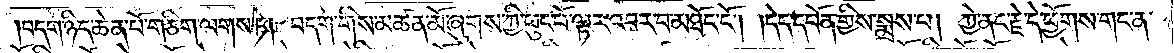།བདག་ཉིད་ཆེན་པོ་གཅིག་ལགས་ཏེ། བདག་གིས་མཚན་མོ་ཞུགས་ཀྱི་ཕུང་པོ་ལྟར་འབར་བ་མཐོང་ངོ༌། །དེད་དཔོན་གྱིས་སྨྲས་པ། ཀྱེ་ནང་རྗེ་དེ་ཕྱོགས་གང་ན་
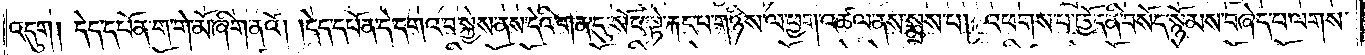འདུག །དེད་དཔོན་ག་གེ་མོ་ཞིག་ནའོ། །དེད་དཔོན་དེ་དགའ་བ་སྐྱེས་ནས་དེའི་གན་དུ་སོང་སྟེ་རྐང་པ་གཉིས་ལ་ཕྱག་འཚལ་ནས་སྨྲས་པ། འཕགས་པ་ཁྱོད་ནི་བསོད་སྙོམས་བཞེད་པ་ལགས་
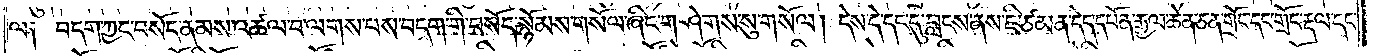ལ༑ བདག་ཀྱང་བསོད་ནམས་འཚལ་བ་ལགས་པས་བདག་གི་བསོད་སྙོམས་གསོལ་ཞིང་གཤེགས་སུ་གསོལ། དེས་དེ་དང་དུ་བླངས་ནས་ཇི་ཙམ་ན་དེད་དཔོན་རྒྱལ་ཆེན་ཅན་གྲོང་དང་གྲོང་རྡལ་དང་
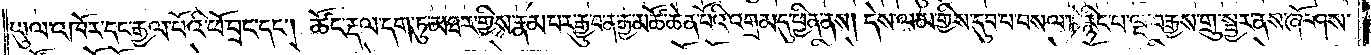ཡུལ་འཁོར་དང་རྒྱལ་པོའི་ཕོ་བྲང་དང༌། ཚོང་རྡལ་དག་ཏུ་མཐར་གྱིས་རྣམ་པར་རྒྱུ་བ་ན་རྒྱ་མཚོ་ཆེན་པོའི་འགྲམ་དུ་ཕྱིན་ནས། དེས་ལམ་གྱིས་དུབ་པ་བསལ་ཏེ་རྙིང་པ་ལྔ་བརྒྱས་གྲུ་སྦྱར་ནས་ཞོ་ཤས་
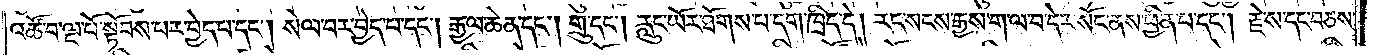འཚོ་བ་ལྔ་པོ་སྟོབས་པར་བྱེད་པ་དང༌། སེལ་བར་བྱེད་པ་དང༌། རྒྱལ་ཆེན་དང༌། གྲུ་དང༌། རླུང་ཡོར་ཐོགས་པ་དག་ཁྲིད་དེ། རང་སངས་རྒྱས་ག་ལ་བ་དེར་སོང་ནས་ཕྱིན་པ་དང༌། རྗེས་དང་བཅས་
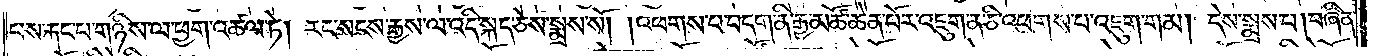པས་རྐང་པ་གཉིས་ལ་ཕྱག་འཚལ་ཏེ། རང་སངས་རྒྱས་ལ་འདི་སྐད་ཅེས་སྨྲས་སོ། །འཕགས་པ་བདག་ནི་རྒྱ་མཚོ་ཆེན་པོར་འཇུག་ན་ཅི་འཕགས་པ་འཇུག་གམ། དེས་སྨྲས་པ། བཞིན་
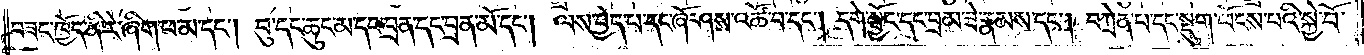བཟང་ཁྱོད་ནི་རེ་ཞིག་ཕ་མ་དང༌། བུ་དང་ཆུང་མ་དང་བྲན་དང་བྲན་མོ་དང༌། ལས་བྱེད་པ་དང་ཞོ་ཤས་འཚོ་བ་དང༌། དགེ་སྦྱོང་དང་བྲམ་ཟེ་རྣམས་དང༌། བཀྲེན་པ་དང་སྡུག་ཕོངས་པའི་སྐྱེ་བོ་
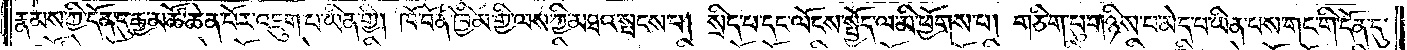རྣམས་ཀྱི་དོན་དུ་རྒྱ་མཚོ་ཆེན་པོར་འཇུག་པ་ཡིན་གྱི། ཁོ་བོ་ནི་ཁྱིམ་གྱི་ལས་ཀྱི་མཐའ་སྤངས་པ། སྲིད་པ་དང་ལོངས་སྤྱོད་ལ་མི་ཕྱོགས་པ། གཅིག་པུ་གཉིས་པ་མེད་པ་ཡིན་པས་གང་གི་དོན་དུ་
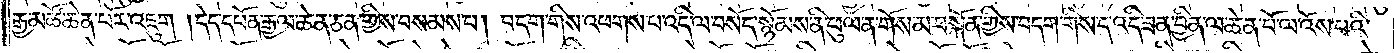རྒྱ་མཚོ་ཆེན་པོར་འཇུག །དེད་དཔོན་རྒྱལ་ཆེན་ཅན་གྱིས་བསམས་པ། བདག་གིས་འཕགས་པ་འདི་ལ་བསོད་སྙོམས་ནི་ཕུལ་ན་གོས་མ་བསྐོན་གྱིས་བདག་གིས་ད་འདི་ཟན་བྱིན་ལ་ཆེན་པོ་ལ་འོས་པའི་
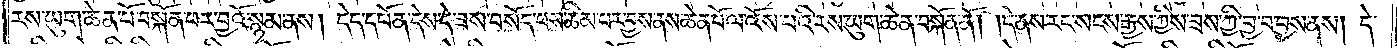རས་ཡུག་ཆེན་པོ་བསྐོན་པར་བྱའོ་སྙམ་ནས། དེད་དཔོན་དེས་དེ་ཟས་བསོད་པས་ཚིམ་པར་བྱས་ནས་ཆེན་པོ་ལ་འོས་པའི་རས་ཡུག་ཆེན་བསྐོན་ནོ། །དེ་ནས་རང་སངས་རྒྱས་ཀྱིས་ཟས་ཀྱི་བྱ་བ་བྱས་ནས། དེ་
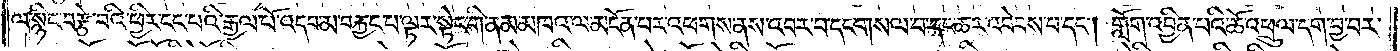ལ་སྙིང་བརྩེ་བའི་ཕྱིར་ངང་པའི་རྒྱལ་པོ་འདབ་མ་བརྐྱང་པ་ལྟར་སྟེང་གི་ནམ་མཁའ་ལ་མངོན་པར་འཕགས་ནས་འབར་བ་དང་གསལ་བ་དང་ཆར་འབེབས་པ་དང༌། གློག་འབྱིན་པའི་ཆོ་འཕྲུལ་དག་བྱ་བར་
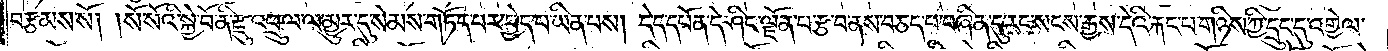བརྩམས་སོ། །སོ་སོའི་སྐྱེ་བོ་ནི་རྫུ་འཕྲུལ་ལ་མྱུར་དུ་སེམས་གཏོད་པར་བྱེད་པ་ཡིན་པས། དེད་དཔོན་དེ་ཤིང་ལྗོན་པ་རྩ་བ་ནས་བཅད་པ་བཞིན་དུ་རང་སངས་རྒྱས་དེའི་རྐང་པ་གཉིས་ཀྱི་དྲུང་དུ་འགྱེལ་
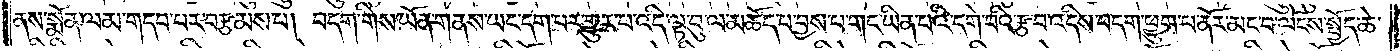ནས་སྨོན་ལམ་གདབ་པར་བརྩམས་པ། བདག་གིས་ཡོན་གནས་ཡང་དག་པར་གྱུར་པ་འདི་ལྟ་བུ་ལ་མཆོད་པ་བྱས་པ་གང་ཡིན་པའི་དགེ་བའི་རྩ་བ་འདིས་བདག་ཕྱུག་པ་ནོར་མང་བ་ལོངས་སྤྱོད་ཆེ་
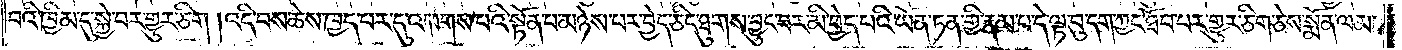བའི་ཁྱིམ་དུ་སྐྱེ་བར་གྱུར་ཅིག །འདི་བས་ཆེས་ཁྱད་པར་དུ་འཕགས་པའི་སྟོན་པ་མཉེས་པར་བྱེད་ཅིང་ཐུགས་བྱུང་བར་མི་བྱེད་པའི་ཡོན་ཏན་གྱི་རྣམ་པ་དེ་ལྟ་བུ་དག་ཀྱང་ཐོབ་པར་གྱུར་ཅིག་ཅེས་སྨོན་ལམ་
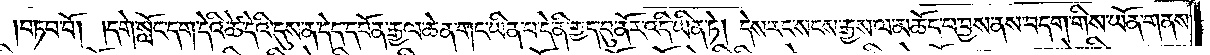བཏབ་བོ། །དགེ་སློང་དག་དེའི་ཚེ་དེའི་དུས་ན་དེད་དཔོན་རྒྱལ་ཆེན་གང་ཡིན་པ་དེ་ནི་གྱད་བུ་ནོར་འདི་ཡིན་ཏེ། དེས་རང་སངས་རྒྱས་ལ་མཆོད་པ་བྱས་ནས་བདག་གིས་ཡོན་གནས་
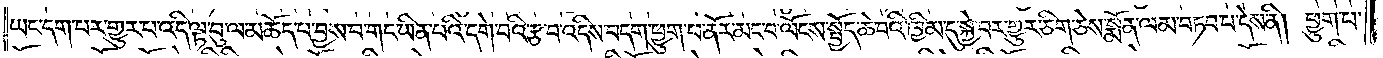ཡང་དག་པར་གྱུར་པ་འདི་ལྟ་བུ་ལ་མཆོད་པ་བྱས་པ་གང་ཡིན་པའི་དགེ་བའི་རྩ་བ་འདིས་བདག་ཕྱུག་པ་ནོར་མང་བ་ལོངས་སྤྱོད་ཆེ་བའི་ཁྱིམ་དུ་སྐྱེ་བར་གྱུར་ཅིག་ཅེས་སྨོན་ལམ་བཏབ་པ་དེས་ནི། ཕྱུག་པ་
